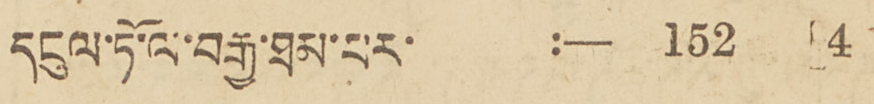དངུལ་ཏོ་ལ་བརྒྱ་ཐམ་པར་ :— 152 4
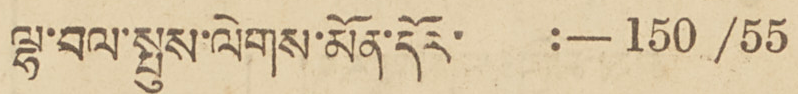ལྟ་བལ་སྤུས་ལེགས་མོན་དོར་ :— 150/55
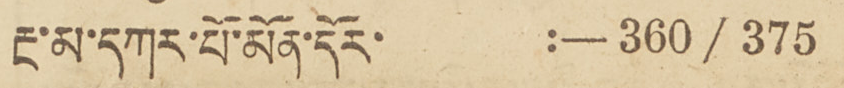རྔ་མ་དཀར་པོ་མོན་དོར་ :— 360/375
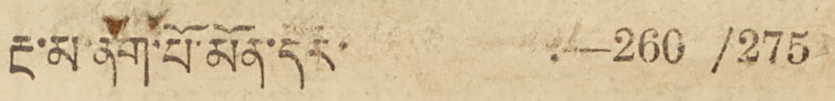རྔ་མ་ནག་པོ་མོན་དོར་ :— 260/275
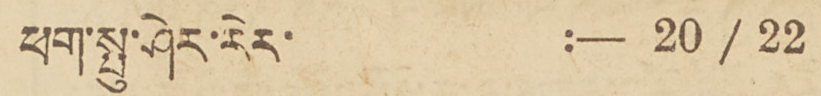ཕག་སྤུ་ཤེར་རེར་ :— 20/22
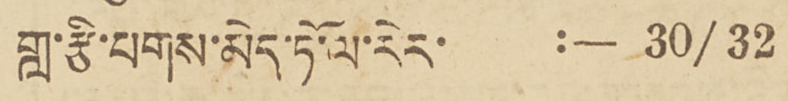གླ་རྩི་པགས་མེད་ཏོ་ལ་རེར་ :— 30/32
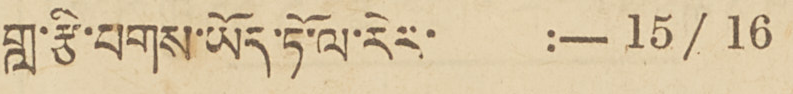གླ་རྩི་པགས་ཡོད་ཏོ་ལ་རེར་ :— 15/16
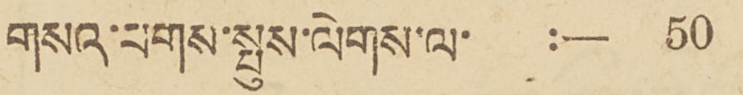གསའ་པགས་སྤུས་ལེགས་ལ་ :— 50
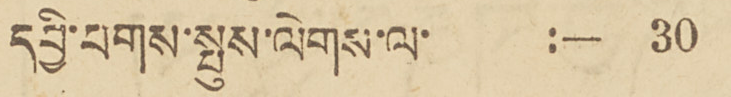དབྱི་པགས་སྤུས་ལེགས་ལ་ :— 30
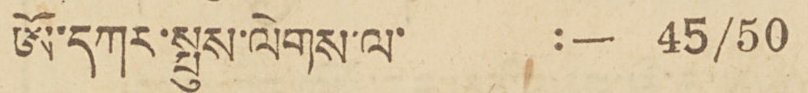ཨོ་དཀར་སྤུས་ལེགས་ལ་ :— 45/50
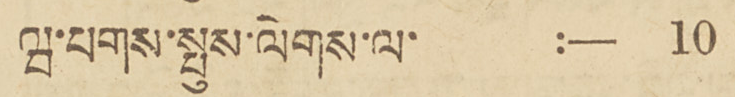ཝ་པགས་སྤུས་ལེགས་ལ་ :— 10
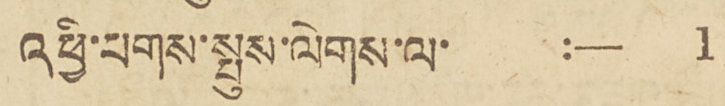འཕྱི་པགས་སྤུས་ལེགས་ལ་ :— 1
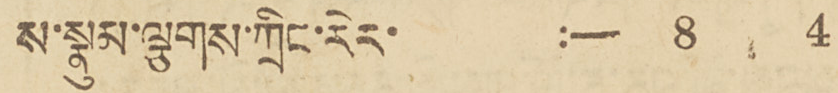ས་སྣུམ་ལྕགས་ཀྲིང་རེར་ :— 8 4
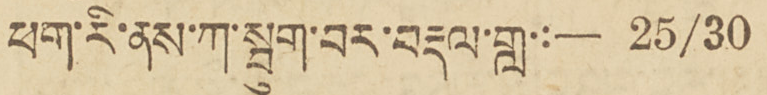ཕག་རི་ནས་ཀ་སྤུག་བར་བརྡལ་གླ་:— 25/30
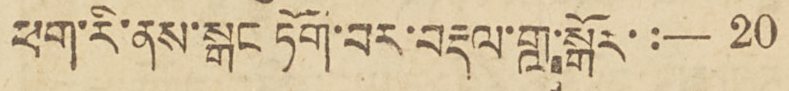ཕག་རི་ནས་སྒང ཏོག་བར་བརྡལ་གླ་སྒོར་:— 20
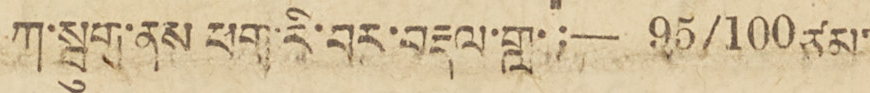ཀ་སྦུག་ནས ཕག་རི་བར་བརྡལ་གླ་:— 95/100 ཙམ་
